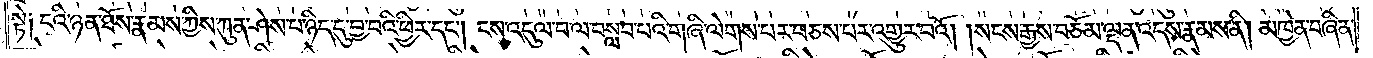སྟེ༑ ངའི་ཉན་ཐོས་རྣམས་ཀྱིས་ཀུན་ཤེས་པ་ཉིད་དུ་བྱ་བའི་ཕྱིར་དང༌། ངས་འདུལ་བ་ལ་བསླབ་པའི་གཞི་ལེགས་པར་བཅས་པར་འགྱུར་བའོ། །སངས་རྒྱས་བཅོམ་ལྡན་འདས་རྣམས་ནི། མཁྱེན་བཞི་
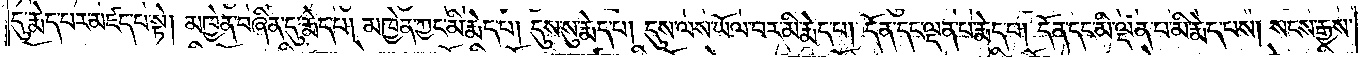དུ་རྨེད་པར་མཛད་པ་སྟེ། མཁྱེན་བཞིན་དུ་རྨེད་པ། མཁྱེན་ཀྱང་མི་རྨེད་པ། དུས་སུ་རྨེད་པ། དུས་ལས་ཡོལ་བར་མི་རྨེད་པ། དོན་དང་ལྡན་པ་རྨེད་པ། དོན་དང་མི་ལྡན་པ་མི་རྨེད་པས། སངས་རྒྱས་
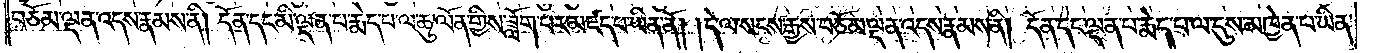བཅོམ་ལྡན་འདས་རྣམས་ནི། དོན་དང་མི་ལྡན་པ་རྨེད་པ་ཆུ་ལོན་གྱིས་ཟློག་པར་མཛད་པ་ཡིན་ནོ། །དེ་ལ་སངས་རྒྱས་བཅོམ་ལྡན་འདས་རྣམས་ནི། དོན་དང་ལྡན་པ་རྨེད་པ་ལ་དུས་མཁྱེན་པ་ཡིན་
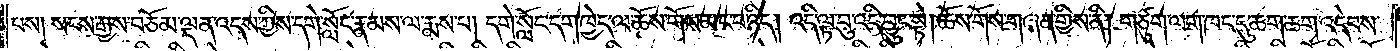པས། སངས་རྒྱས་བཅོམ་ལྡན་འདས་ཀྱིས་དགེ་སློང་རྣམས་ལ་རྨས་པ། དགེ་སློང་དག་ཁྱེད་ལ་ཆོས་གོས་མང་བ་ཉིད། འདི་ལྟ་བུ་འདི་བྱུང་སྟེ། ཆོས་གོས་གཞན་གྱིས་ནི། གཙུག་ལག་ཁང་དུ་ཆག་ཆག་འདེབས་
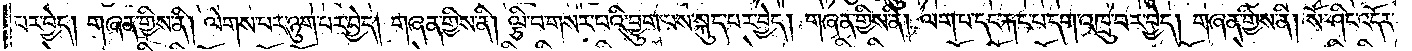པར་བྱེད། གཞན་གྱིས་ནི། ལེགས་པར་ཉུག་པར་བྱེད། གཞན་གྱིས་ནི། ལྕི་བ་གསར་པའི་བྱུག་པས་སྐུད་པར་བྱེད། གཞན་གྱིས་ནི། ལག་པ་དང་རྐང་པ་དག་འཁྲུ་བར་བྱེད། གཞན་གྱིས་ནི། སོ་ཤིང་འདོར་
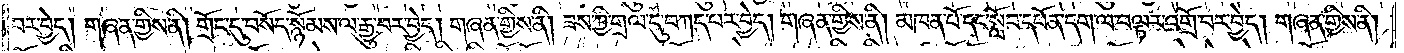བར་བྱེད། གཞན་གྱིས་ནི། གྲོང་དུ་བསོད་སྙོམས་ལ་རྒྱུ་བར་བྱེད། གཞན་གྱིས་ནི། ཟས་ཀྱི་གྲལ་དུ་བཀད་པར་བྱེད། གཞན་གྱིས་ནི། མཁན་པོ་དང་སློབ་དཔོན་དག་ལ་བལྟར་འགྲོ་བར་བྱེད། གཞན་གྱིས་ནི།
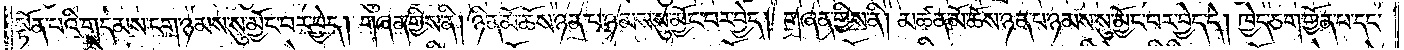སྟོན་པའི་གདམས་ངག་ཉམས་སུ་མྱོང་བར་བྱེད། གཞན་གྱིས་ནི། ཉིན་མོ་ཆོས་ཉན་པ་ཉམས་སུ་མྱོང་བར་བྱེད། གཞན་གྱིས་ནི། མཚན་མོ་ཆོས་ཉན་པ་ཉམས་སུ་མྱོང་བར་བྱེད་དེ། ཁྱེད་ཅག་གྱོན་པ་དང༌།
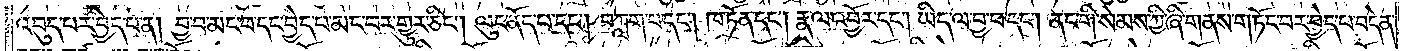འབུད་པར་བྱེད་པ་ན། བྱ་བ་མང་པོ་བྱེད་པ་མང་བར་གྱུར་ཅིང༌། ལུང་ནོད་པ་དང༌། བཀླག་པ་དང༌། ཁ་ཏོན་དང༌། རྣལ་འབྱོར་དང༌། ཡིད་ལ་བྱ་བ་དང༌། ནང་གི་སེམས་ཀྱིས་ཞི་གནས་གཏོང་བར་བྱེད་པ་བདེན་
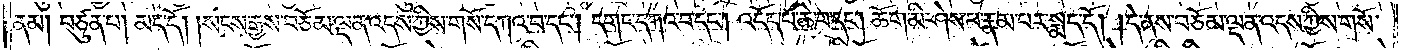ནམ། བཙུན་པ། མད་དོ། སངས་རྒྱས་བཅོམ་ལྡན་འདས་ཀྱིས་གསོ་དཀའ་བ་དང༌། དགང་དཀའ་བ་དང༌། འདོད་པ་ཆེ་བ་དང༌། ཆོག་མི་ཤེས་པ་རྣམ་པར་སྨད་དོ། །དེ་ནས་བཅོམ་ལྡན་འདས་ཀྱིས་གསོ་
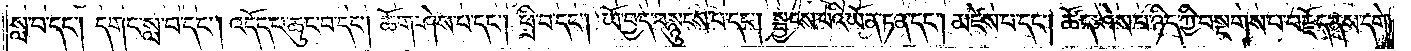སླ་བ་དང༌། དགང་སླ་བ་དང༌། འདོད་པ་ཆུང་བ་དང༌། ཆོག་ཤེས་པ་དང༌། ཕྲི་བ་དང༌། ཡོ་བྱད་བསྙུངས་པ་དང༌། སྦྱངས་པའི་ཡོན་ཏན་དང༌། མཛེས་པ་དང༌། ཚོད་ཤེས་པ་ཉིད་ཀྱི་བསྔགས་པ་བརྗོད་ནས་དགེ་
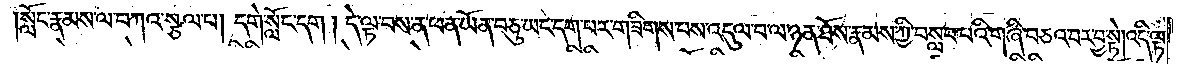སློང་རྣམས་ལ་བཀའ་སྩལ་པ། དགེ་སློང་དག །དེ་ལྟ་བས་ན་ཕན་ཡོན་བཅུ་ཡང་དག་པར་གཟིགས་པས་འདུལ་བ་ལ་ཉན་ཐོས་རྣམས་ཀྱི་བསླབ་པའི་གཞི་བཅའ་བར་བྱ་སྟེ། འདི་ལྟ་
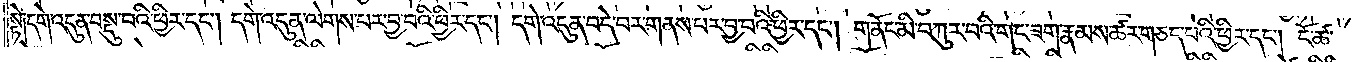སྟེ༑དགེ་འདུན་བསྡུ་བའི་ཕྱིར་དང༌། དགེ་འདུན་ལེགས་པར་བྱ་བའི་ཕྱིར་དང༌། དགེ་འདུན་བདེ་བར་གནས་པར་བྱ་བའི་ཕྱིར་དང༌། གནོང་མི་བཀུར་བའི་གང་ཟག་རྣམས་ཚར་གཅད་པའི་ཕྱིར་དང༌། ངོ་ཚ་
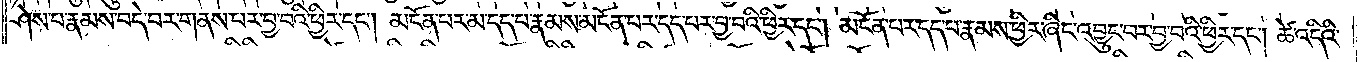ཤེས་པ་རྣམས་བདེ་བར་གནས་པར་བྱ་བའི་ཕྱིར་དང༌། མངོན་པར་མ་དད་པ་རྣམས་མངོན་པར་དད་པར་བྱ་བའི་ཕྱིར་དང༌། མངོན་པར་དད་པ་རྣམས་ཕྱིར་ཞིང་འབྱུང་བར་བྱ་བའི་ཕྱིར་དང༌། ཚེ་འདིའི་
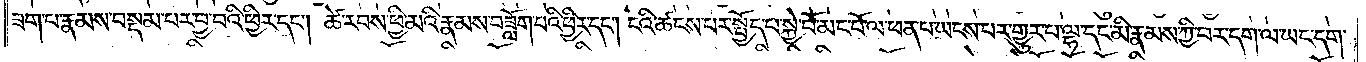ཟག་པ་རྣམས་བསྡམ་པར་བྱ་བའི་ཕྱིར་དང༌། ཚེ་རབས་ཕྱི་མའི་རྣམས་བཟློག་པའི་ཕྱིར་དང༌། ངའི་ཚངས་པར་སྤྱོད་པ་སྐྱེ་བོ་མང་པོ་ལ་ཕན་པ་ཡངས་པར་གྱུར་པ་ལྷ་དང་མི་རྣམས་ཀྱི་བར་དག་ལ་ཡང་དག་
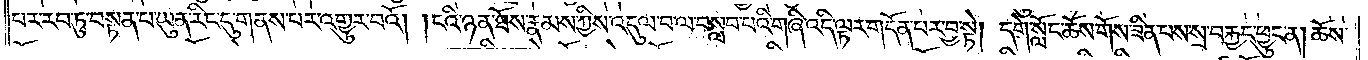པར་རབ་ཏུ་བསྟན་པ་ཡུན་རིང་དུ་གནས་པར་འགྱུར་བའོ། །ངའི་ཉན་ཐོས་རྣམས་ཀྱིས་འདུལ་བ་ལ་བསླབ་པའི་གཞི་འདི་ལྟར་གདོན་པར་བྱ་སྟེ། དགེ་སློང་ཆོས་གོས་ཟིན་པས་སྲ་བརྐྱང་ཕྱུང་ན། ཆོས་
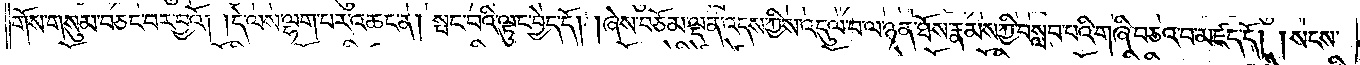གོས་གསུམ་བཅང་བར་བྱའོ། །དེ་ལས་ལྷག་པར་འཆང་ན། སྤང་བའི་ལྟུང་བྱེད་དོ། །ཞེས་བཅོམ་ལྡན་འདས་ཀྱིས་འདུལ་བ་ལ་ཉན་ཐོས་རྣམས་ཀྱི་བསླབ་པའི་གཞི་བཅའ་བ་མཛད་དོ། །སངས་
